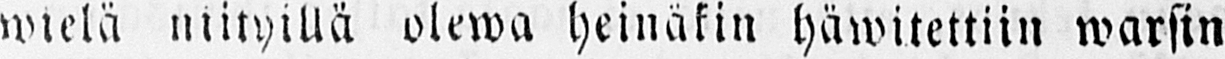wielä niityillä olewa heinäkin häwitettiin warsin
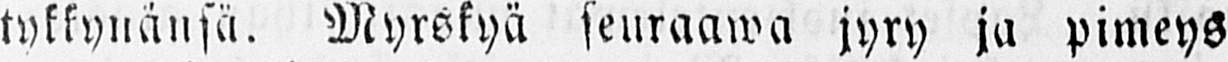tykkynänsä. Myrskyä seuraawa jyry ja pimeys
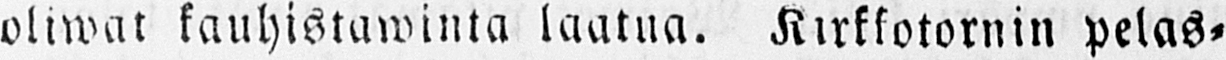oliwat kauhistawinta laatua. Kirkkotornin, pelas-
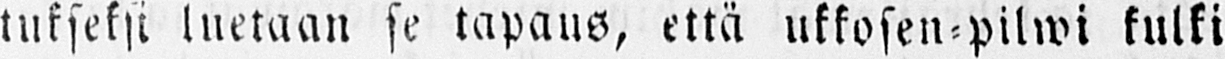tukseksi luetaan se tapaus, että ukkosen-pilwi kulki
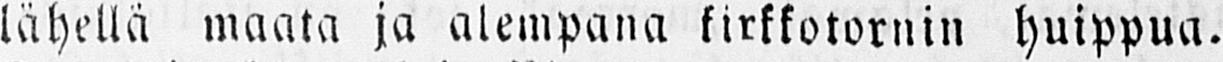lähellä maata ja alempana kirkkotornin huippua.
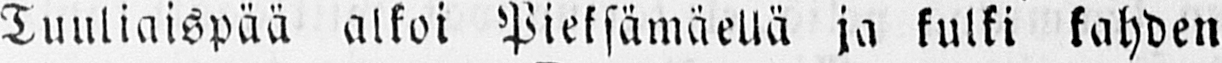Tuuliaispää alkoi Pieksämäellä ja kulki kahden
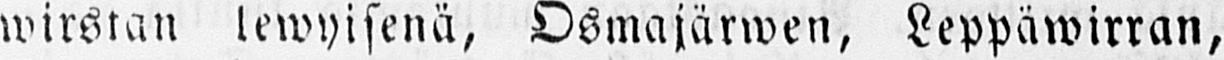wirstan lewyisenä, Osmajärwen, Leppäwirran,
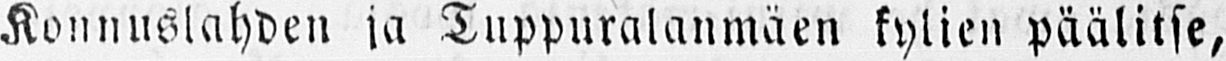Konnuslahden ja Tuppuralanmäen kylien päälitse,
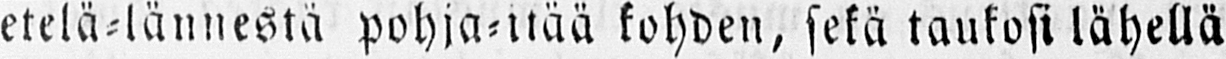etelä-lännestä pohja-itää kohden, sekä taukosi lähellä
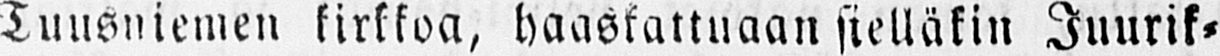Tuusniemen kirkkoa, haaskattuaan sielläkin Juurik-
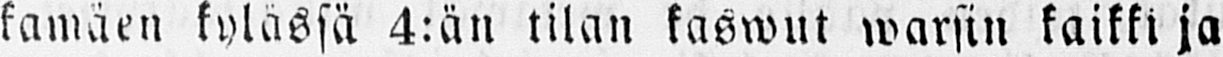kamäen kylässä 4:än tilan kaswut warsin kaikki ja
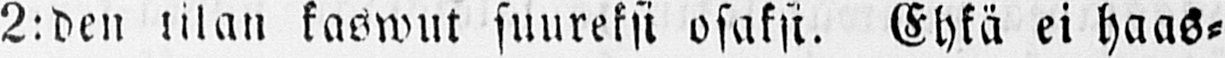2:den tilan kaswut suureksi osaksi. Ehkä ei haas-
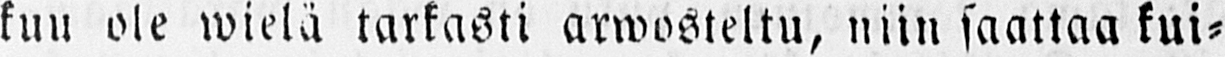kuu ole wielä tarkasti arwosteltu, niin saattaa kui-
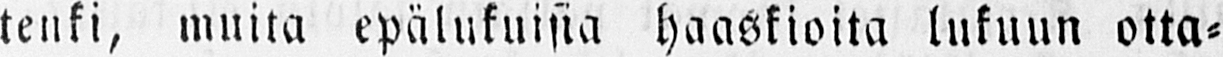tenki, muita epälukuisia haaskioita lukuun otta-
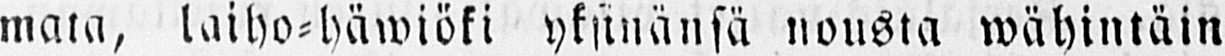mata, laiho-häwiöki yksinänsä nousta wähintäin
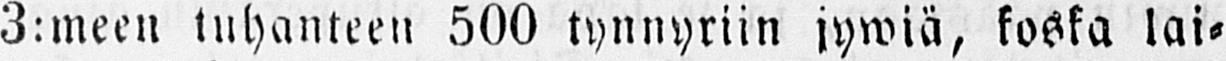3:meen tuhanteen 500 tynnyriin jywiä, koska lai-
